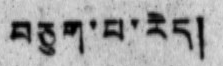བཅུག་པ་རེད།
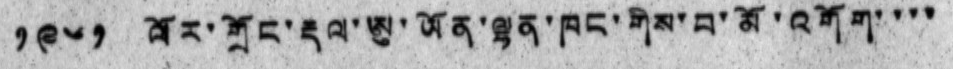༡༩༦༡ ལོར་གྲོང་རྡལ་ཨུ་ཡོན་ལྷན་ཁང་གིས་བ་མོ་འགོག་་་་
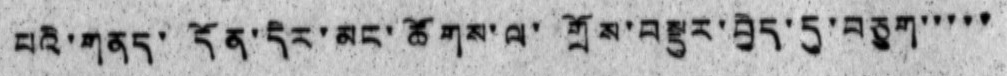པའི་གནད་ དོན་དེར་མང་ཚོགས་ལ་ གྲོས་བསྡུར་བྱེད་དུ་བཅུག་་་་་
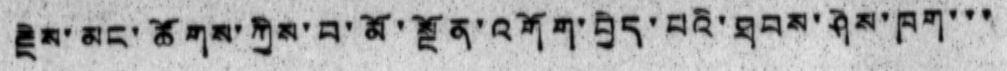རྗེས་མང་ཚོགས་ཀྱིས་བ་མོ་སྔོན་འགོག་བྱེད་པའི་ཐབས་ཤེས་ཁག་་་
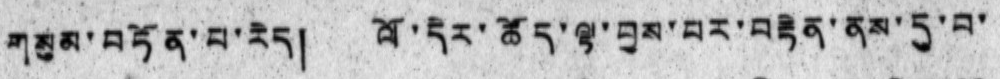གསུམ་བཏོན་པ་རེད། ལོ་དེར་ཚོད་ལྟ་བྱས་པར་བརྟེན་ནས་དུ་བ་
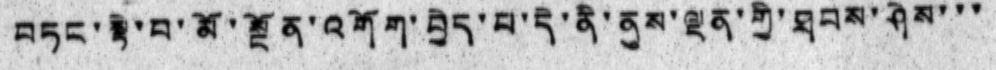བཏང་སྟེ་བ་མོ་སྔོན་འགོག་བྱེད་པ་དེ་ནི་ནུས་ལྡན་གྱི་ཐབས་ཤེས་་་
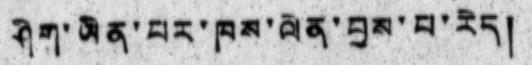ཤིག་ཡིན་པར་ཁས་ལེན་བྱས་པ་རེད།
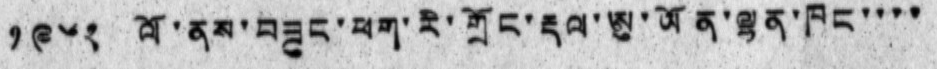༡༩༦༢ ལོ་ནས་བཟུང་ཕག་རི་གྲོང་རྡལ་ཨུ་ཡོན་ལྷན་ཁང་་་་
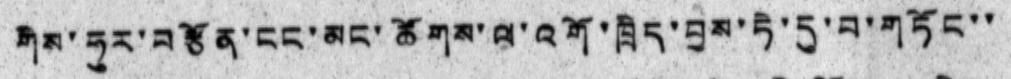གིས་ཧུར་བརྩོན་ངང་མང་ཚོགས་ལ་འགོ་ཁྲིད་བྱས་ཏེ་དུ་བ་གཏོང་་
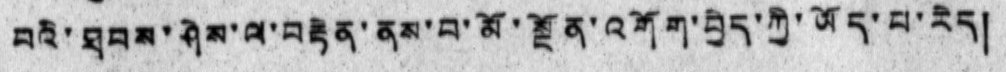བའི་ཐབས་ཤེས་ལ་བརྟེན་ནས་བ་མོ་སྔོན་འགོག་བྱེད་ཀྱི་ཡོད་པ་རེད།
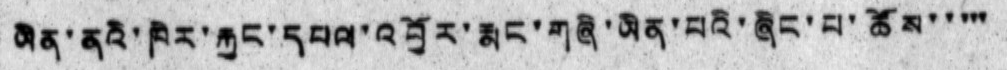ཡིན་ནའི་ཁེར་རྐྱང་དཔལ་འབྱོར་རྨང་གཞི་ཡིན་པའི་ཞིང་པ་ཚོས་་་་་
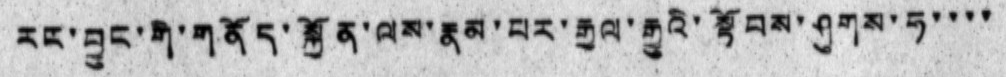རང་བྱུང་གི་གནོད་སྐྱོན་ལས་རྣམ་པར་རྒྱལ་རྒྱུའི་སྟོབས་ཤུགས་ཧ་་་་
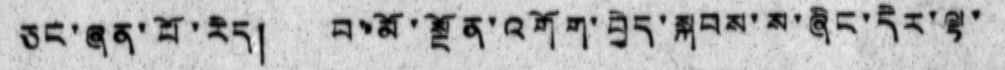ཅང་ཞན་པོ་རེད། བ་མོ་སྔོན་འགོག་བྱེད་སྐབས་ས་ཞིང་དེར་ལྟ་
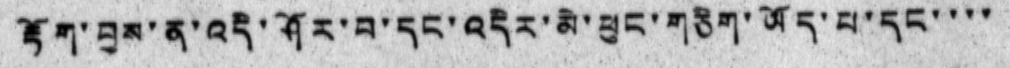རྟོག་བྱས་ན་འདི་ཤོར་བ་དང་འདིར་མེ་ཕུང་གཅིག་ཡོད་པ་དང་་་་
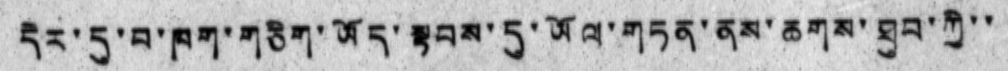དེར་དུ་བ་ཁག་གཅིག་ཡོད་སྟབས་དུ་ཡོལ་གཏན་ནས་ཆགས་ཐུབ་ཀྱི་་
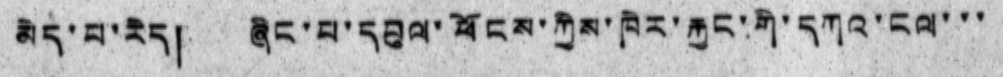མེད་པ་རེད། ཞིང་པ་དབུལ་ཕོངས་ཀྱིས་ཁེར་རྐྱང་གི་དཀའ་ངལ་་་
